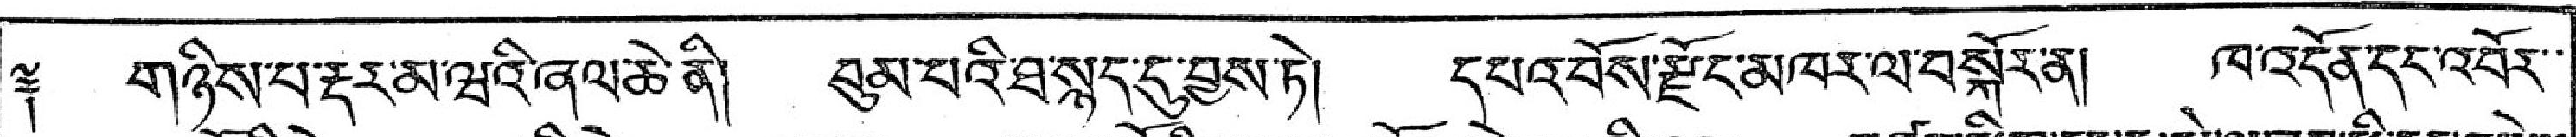༈ གཉིས་པ་རྡར་མ་ཝའི་ནལ་ཆེ་ནི། བུམ་པའི་ཐ་སྙད་དུ་བྱས་ཏེ། དཔའ་བོས་རྫོང་མཁར་ལ་བསྐོར་ན། ཁ་འདོན་དང་འབོར་་
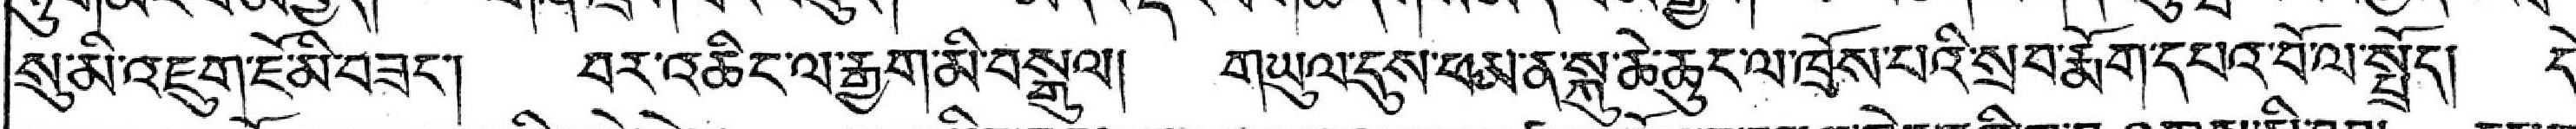སུ་མི་འཇུག་ཇོ་མི་བཟང་། བར་འཆིང་ལ་རྒྱག་མི་བསྒུལ། གཡུལ་དུས་ཕམ་ན་སྐུ་ཆེ་ཆུང་ལ་ཁྲོས་པའི་སྲབ་རྨོག་དཔའ་བོ་ལ་སྤྲོད། དེ་
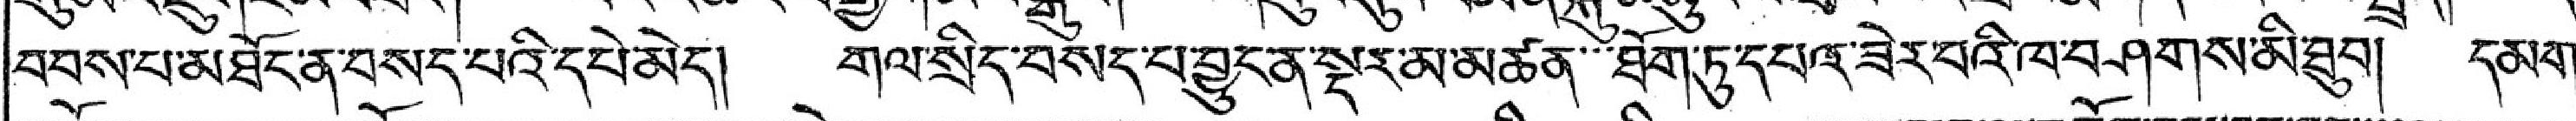བབས་པ་མཐོང་ན་བསད་པའི་དཔེ་མེད། གལ་སྲིད་བསད་པ་བྱུང་ན་སྡར་མ་མཚན་་་ཐོག་ཏུ་དཔའ་ཟེར་བའི་ཁ་བཤགས་མི་ཐུབ། དམག་
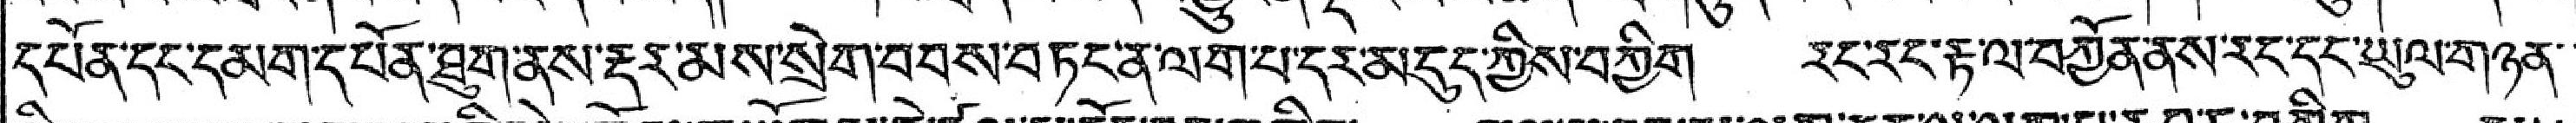དཔོན་དང་དམག་དཔོན་ཐུག་ནས་རྡར་མས་སྲེག་བབས་བཏང་ན་ལག་པ་དར་མདུད་ཀྱིས་བཀྱིག  རང་རང་རྟ་ལ་བཀྱོན་ནས་རང་དང་ཡུལ་གཉན་་་
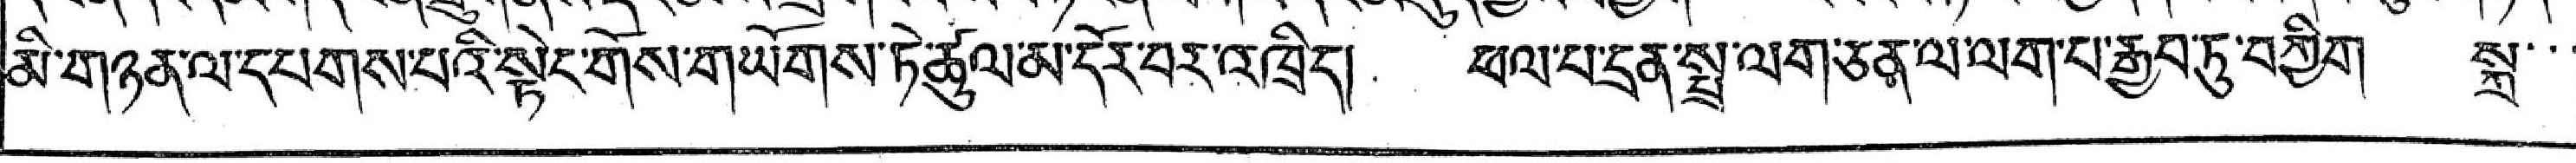མི་གཉན་ལ་དཔགས་པའི་སྟེང་གོས་གཡོགས་ཏེ་ཚུལ་མ་དོར་བར་འཁྲིད། ཕལ་པ་དྲན་སྤྲ་ལག་ཅན་ལ་ལག་པ་རྒྱབ་ཏུ་བཀྱིག  སྐྲ་་་
